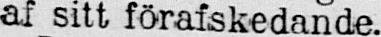af sitt förafskedande.
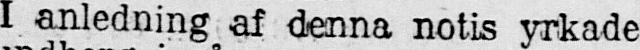I anledning af denna notis yrkade
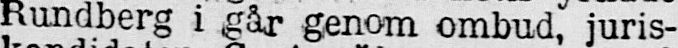Rundberg i går genom ombud, juris-
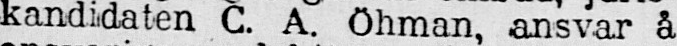kandidaten C. A. Öhman, ansvar å
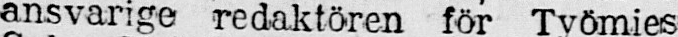ansvarige redaktören för Työmies
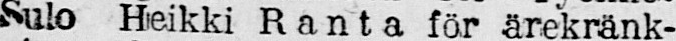Sulo Heikki Ranta för ärekränk-
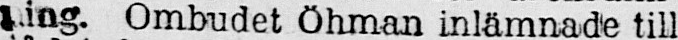ning. Ombudet Öhman inlämnade till
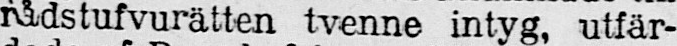rådstufvurätten tvenne intyg, utfär-
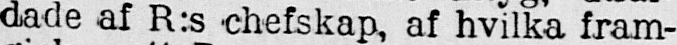dade af R:s chefskap, af hvilka fram-
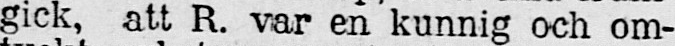gick, att R. var en kunnig och om-
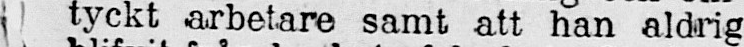tyckt arbetare samt att han aldrig
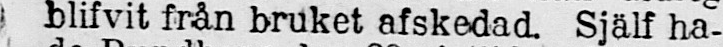blifvit från bruket afskedad Själf ha-
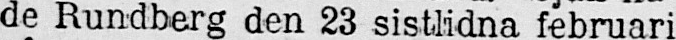de Rundberg den 23 sistlidna februari
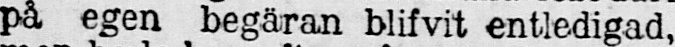på egen begäran blifvit entledigad,
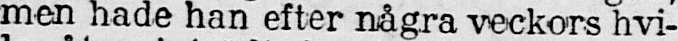men hade han efter några veckors hvi-
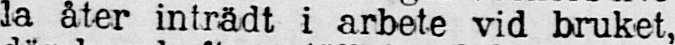la åter intrådt i arbete vid bruket,
